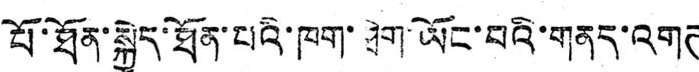པོ་ཐོན་སྐྱེད་ཐོན་པའི་ཁག་ཐེག་ཡོང་བའི་གནད་འགཊ
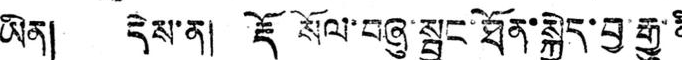ཡིན། དེས་ན། རྡོ སོལ་བཞུ་སྦྱང་ཐོན་སྐྱེད་བྱ་རྒྱུ་ནི
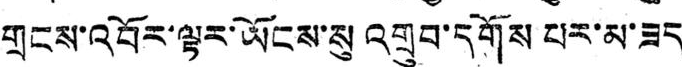གྲངས་འབོར་ལྟར་ཡོངས་སུ འགྲུབ་དགོས པར་མ་ཟད།
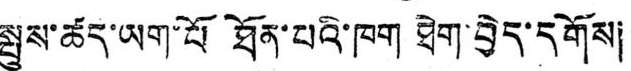སྤུས་ཚད་ཡག་པོ ཐོན་པའི་ཁག ཐེག་བྱེད་དགོས།
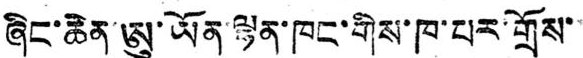ཞིང་ཆེན་ཨུ་ཡོན་ལྷན་ཁང་གིས་ཁ་པར་གྲོས་་་
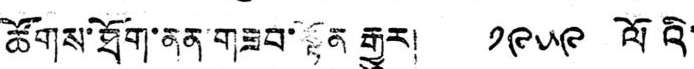ཚོགས་ཐོག་ནན་གཟབ་སྟོན རྒྱུར། ༡༩༥༩ ལོའི་
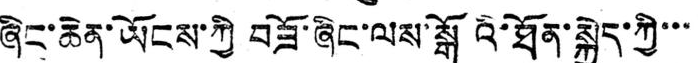ཞིང་ཆེན་ཡོངས་ཀྱི བཟོ་ཞིང་ལས་སྒོའི་ཐོན་སྐྱེད་ཀྱི་་་
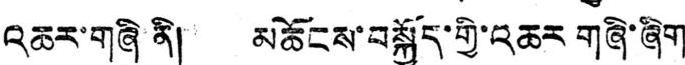འཆར་གཞི་ནི། མཆོངས་བསྐྱོད་གྱི་འཆར གཞི་ཞིག་
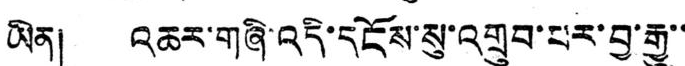ཡིན། འཆར་གཞི་འདི་དངོས་སུ་འགྲུབ་པར་བྱ་རྒྱུ་་་
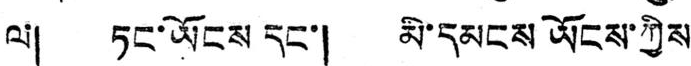ལ། ཏང་ཡོངས དང་། མི་དམངས ཡོངས་ཀྱིས་
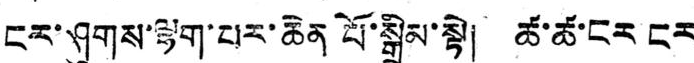ངར་ཤུགས་ལྷག་པར་ཆེན པོ་སྒྲིམ་སྟེ། ཚ་ཚ་ངར་ངར
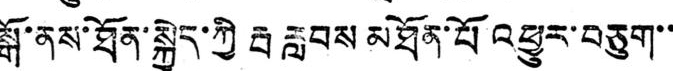སྒོ་ནས་ཐོན་སྐྱེད་ཀྱི རྦ རླབས མཐོན་པོ འཕྱུར་བཅུག་་་
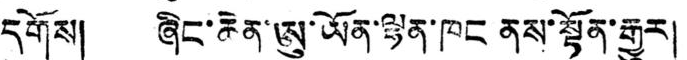དགོས། ཞིང་ཆེན་ཨུ་ཡོན་ལྷན་ཁང ནས་སྟོན་རྒྱུར།
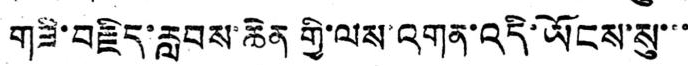གཟི་བརྗིད་རླབས་ཆེན གྱི་ལས་འགན་འདི་ཡོངས་སུ་་་་
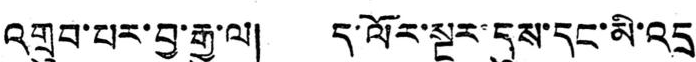འགྲུབ་པར་བྱ་རྒྱུ་ལ། ད་ལོར་སྔར་དུས་དང་མི་འདྲ
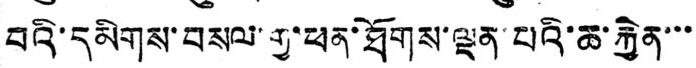བའི་དམིགས་བསལ་གྱ་ཕན་ཐོགས་ལྡན་པའི་ཆ་རྐྱེན་་་
